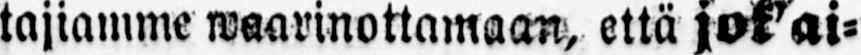tajiamme waarinottamaan että jok'ai-
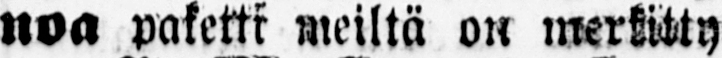noa paketti meiltä on merkitty
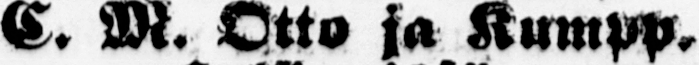C. M. Otto ja Kumpp.
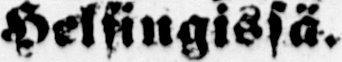Helsingissä .
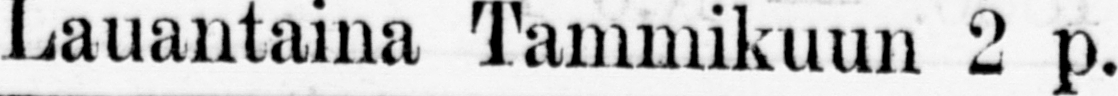Lauantaina Tammikuun 2 p.
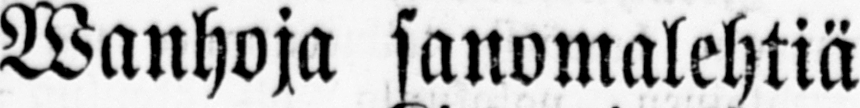Wanhoja sanomalehtiä
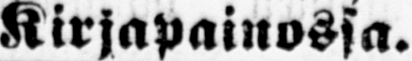Kirjapainossa.
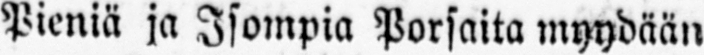Pieniä ja Isompia Porsaita myydään
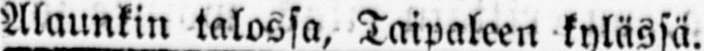Alaunkin talossa. Taipaleen kyläsiä.
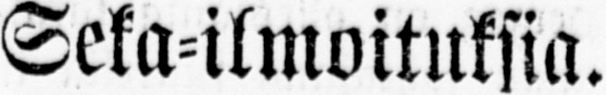Seka-ilmoituksia.
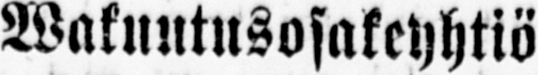Wakuutusosakeyhtiö
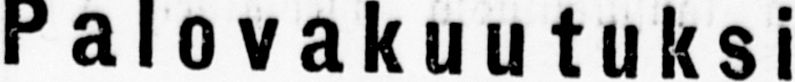Pal ovakuutuksia
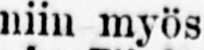niin myös
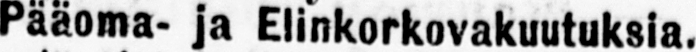Henki-, pääoma- ja Elinkorkovakuutuksia.
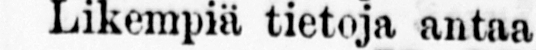Likempiä tietoja antaa
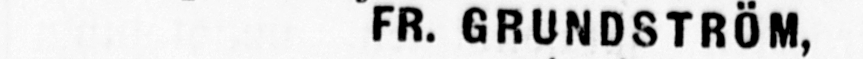FR. GRUNDSTRŐM,
